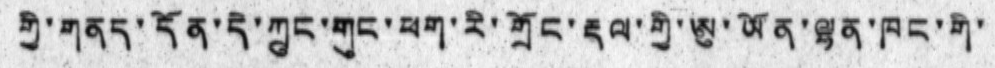གྱི་གནད་དོན་དེ་ཀྲུང་གུང་ཕག་རི་གྲོང་རྡལ་གྱི་ཨུ་ཡོན་ལྷན་ཁང་གི་
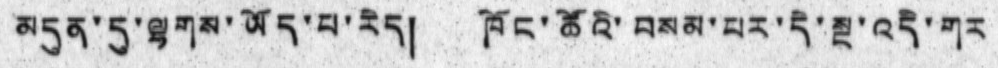མདུན་དུ་ལྷགས་ཡོད་པ་རེད། ཁོང་ཚོའི་བསམ་པར་དེ་སྔ་འདི་གར
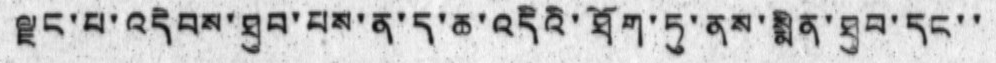ལྗང་པ་འདེབས་ཐུབ་པས་ན་ད་ཆ་འདིའི་ཐོག་ཏུ་ནས་སྨིན་ཐུབ་དང་་
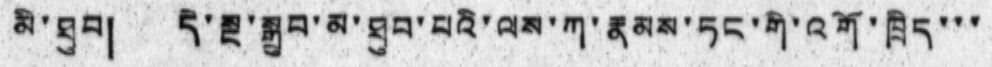མི་ཐུབ། དེ་སྔ་སྒྲུབ་མ་ཐུབ་པའི་ལས་ཀ་རྣམས་ཏང་གི་འགོ་ཁྲིད་་་
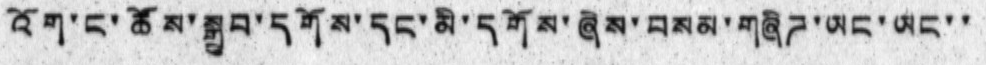འོག་ང་ཚོས་སྒྲུབ་དགོས་དང་མི་དགོས་ཞེས་བསམ་གཞིཌ་ཡང་ཡང་་
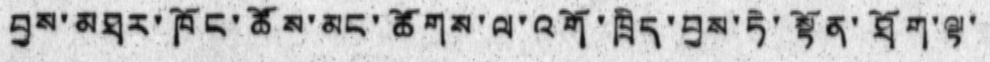བྱས་མཐར་ཁོང་ཚོས་མང་ཚོགས་ལ་འགོ་ཁྲིད་བྱས་ཏེ་སྟོན་ཐོག་ལྟ་
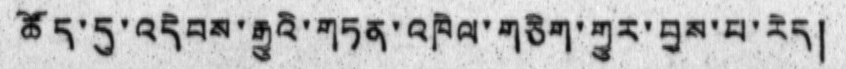ཚོད་དུ་འདེབས་རྒྱུའི་གཏན་འཁེལ་གཅིག་གྱུར་བྱས་པ་རེད།
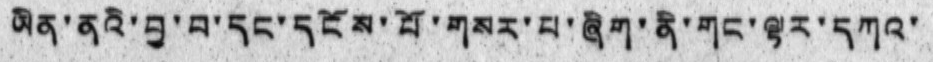ཡིན་ནའི་བྱ་བ་དང་དངོས་པོ་གསར་པ་ཞིག་ནི་གང་ལྟར་དཀའ་
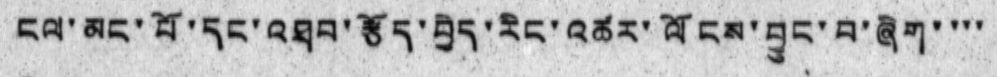ངལ་མང་པོ་དང་འཐབ་རྩོད་བྱེད་རིང་འཚར་ལོངས་བྱུང་བ་ཞིག་་་་
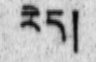རེད།
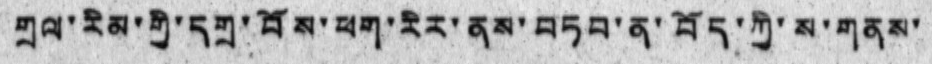གྲལ་རིམ་གྱི་དགྲ་བོས་ཕག་རིར་ནས་བཏབ་ན་བོད་ཀྱི་ས་གནས་
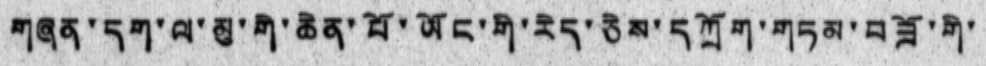གཞན་དག་ལ་མུ་གི་ཆེན་པོ་ཡོང་གི་རེད་ཅེས་དཀྲོག་གཏམ་བཟོ་གི་
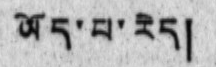ཡོད་པ་རེད།
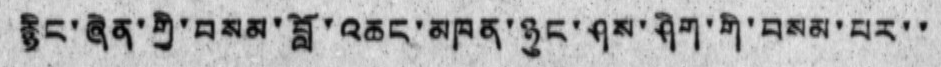རྙིང་ཞེན་གྱི་བསམ་བློ་འཆང་མཁན་ཉུང་ཤས་ཤིག་གི་བསམ་པར་་
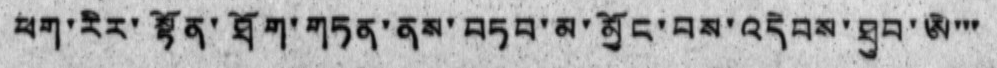ཕག་རིར་སྟོན་ཐོག་གཏན་ནས་བཏབ་མ་མྱོང་བས་འདེབས་ཐུབ་ཨི་་་
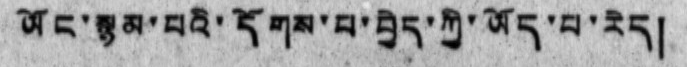ཡོང་སྙམ་པའི་དོགས་པ་བྱེད་ཀྱི་ཡོད་པ་རེད།
